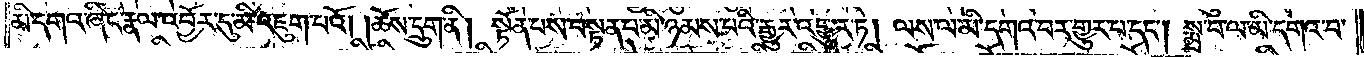མི་དགའ་ཞིང་རྣལ་འབྱོར་དུ་མི་འཇུག་པའོ། །ཆོས་དྲུག་ནི། སྟོན་པས་བསྟན་པ་མི་ཉམས་པའི་རྒྱུར་འགྱུར་ཏེ། ལས་ལ་མི་དགའ་བར་གྱུར་པ་དང༌། སྨྲ་བ་ལ་མི་དགའ་བ་
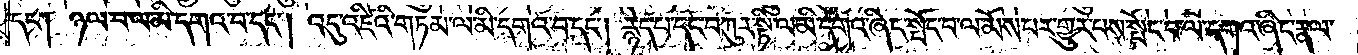དང༌། ཉལ་བ་ལ་མི་དགའ་བ་དང༌། འདུ་འཛིའི་གཏམ་ལ་མི་དགའ་བ་དང༌། རྙེད་པ་དང་བཀུར་སྟི་ལ་མི་དགའ་ཞིང་སྤོང་བ་ལ་མོས་པར་གྱུར་པས་སྤོང་བ་ལ་དགའ་ཞིང་རྣལ་
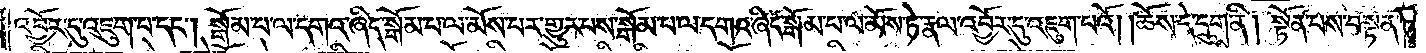འབྱོར་དུ་འཇུག་པ་དང༌། སྒོམ་པ་ལ་དགའ་ཞིང་སྒོམ་པ་ལ་མོས་པར་གྱུར་པས་སྒོམ་པ་ལ་དགའ་ཞིང་སྒོམ་པ་ལ་མོས་ཏེ་རྣལ་འབྱོར་དུ་འཇུག་པའོ། །ཆོས་དེ་དྲུག་ནི། སྟོན་པས་བསྟན་
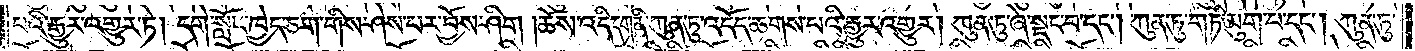པའི་རྒྱུར་འགྱུར་ཏེ། དགེ་སློང་ཁྱེད་ཅག་གིས་ཤེས་པར་བྱོས་ཤིག། ཆོས་འདི་དག་ནི་ཀུན་ཏུ་འདོད་ཆགས་པའི་རྒྱུར་འགྱུར། ཀུན་ཏུ་ཞེ་སྡང་བ་དང༌། ཀུན་ཏུ་གཏི་མུག་པ་དང༌། ཀུན་ཏུ་
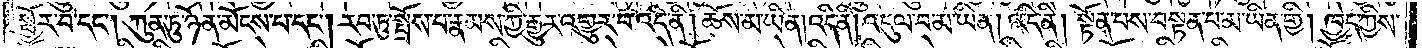སྦྱོར་བ་དང༌། ཀུན་ཏུ་ཉོན་མོངས་པ་དང༌། རབ་ཏུ་སྤྲོས་པ་རྣམས་ཀྱི་རྒྱུར་འགྱུར་བ་འདི་ནི། ཆོས་མ་ཡིན། འདི་ནི། འདུལ་བ་མ་ཡིན། འདི་ནི། སྟོན་པས་བསྟན་པ་མ་ཡིན་གྱི། ཁྱེད་ཀྱིས་
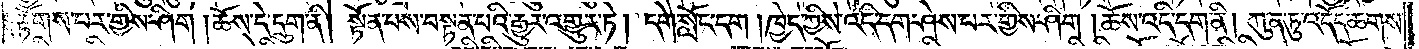རྟོགས་པར་གྱིས་ཤིག །ཆོས་དེ་དྲུག་ནི། སྟོན་པས་བསྟན་པའི་རྒྱུར་འགྱུར་ཏེ། དགེ་སློང་དག །ཁྱེད་ཀྱིས་འདི་དག་ཤེས་པར་གྱིས་ཤིག །ཆོས་འདི་དག་ནི། ཀུན་ཏུ་འདོད་ཆགས་
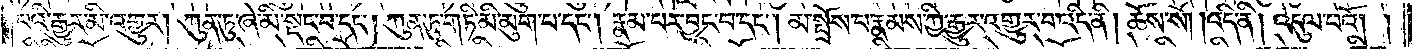པའི་རྒྱུར་མི་འགྱུར། ཀུན་ཏུ་ཞེ་མི་སྡང་བ་དང༌། ཀུན་ཏུ་གཏི་མི་མུག་པ་དང༌། རྣམ་པར་བྱང་བ་དང༌། མ་སྤྲོས་པ་རྣམས་ཀྱི་རྒྱུར་འགྱུར་བ་འདི་ནི། ཆོས་སོ། །འདི་ནི། འདུལ་བའོ། །
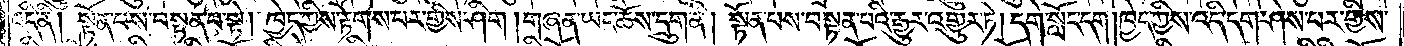འདི་ནི། སྟོན་པས་བསྟན་པ་སྟེ། ཁྱེད་ཀྱིས་རྟོགས་པར་གྱིས་ཤིག །གཞན་ཡང་ཆོས་དྲུག་ནི། སྟོན་པས་བསྟན་པའི་རྒྱུར་འགྱུར་ཏེ། དགེ་སློང་དག །ཁྱེད་ཀྱིས་འདི་དག་ཤེས་པར་གྱིས་
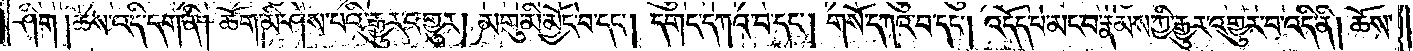ཤིག །ཆོས་འདི་དག་ནི། ཆོག་མི་ཤེས་པའི་རྒྱུར་འགྱུར། མགུ་མི་མྱོང་བ་དང༌། དགང་དཀའ་བ་དང༌། གསོ་དཀའ་བ་དང༌། འདོད་པ་མང་བ་རྣམས་ཀྱི་རྒྱུར་འགྱུར་བ་འདི་ནི། ཆོས་
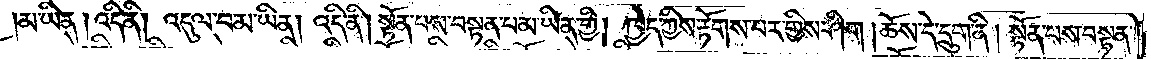མ་ཡིན་།འདི་ནི། འདུལ་བ་མ་ཡིན། འདི་ནི། སྟོན་པས་བསྟན་པ་མ་ཡིན་གྱི། ཁྱེད་ཀྱིས་རྟོགས་པར་གྱིས་ཤིག །ཆོས་དེ་དྲུག་ནི། སྟོན་པས་བསྟན་
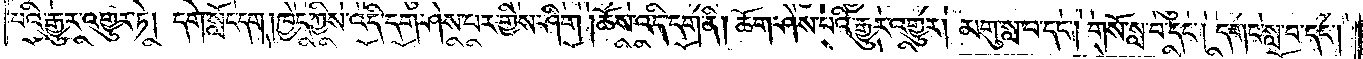པའི་རྒྱུར་འགྱུར་ཏེ། དགེ་སློང་དག །ཁྱེད་ཀྱིས་འདི་དག་ཤེས་པར་གྱིས་ཤིག །ཆོས་འདི་དག་ནི། ཆོག་ཤེས་པའི་རྒྱུར་འགྱུར། མགུ་སླ་བ་དང༌། གསོ་སླ་བ་དང༌། དགང་སླ་བ་དང༌།
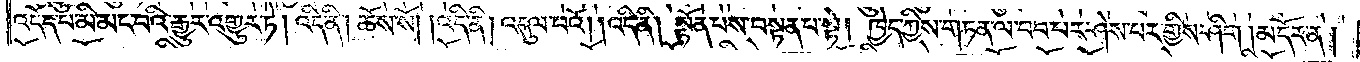འདོད་པ་མི་མང་བའི་རྒྱུར་འགྱུར་ཏེ། འདི་ནི། ཆོས་སོ། །འདི་ནི། འདུལ་བའོ། །འདི་ནི། སྟོན་པས་བསྟན་པ་སྟེ། ཁྱེད་ཀྱིས་གཏན་ལ་བབ་པར་ཤེས་པར་གྱིས་ཤིག །མདོར་ན་།
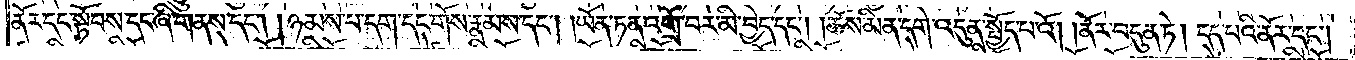ནོར་དང་སྟོབས་དང་ཞི་གནས་དང༌། །ཉམས་པ་དག་དང་གོས་རྣམས་དང༌། །ཡོན་ཏན་འགྲོ་བར་མི་བྱེད་དང༌། །ཆོས་མིན་དགེ་འདུན་སྤྱོད་པའོ། །ནོར་བདུན་ཏེ། དད་པའི་ནོར་དང༌།
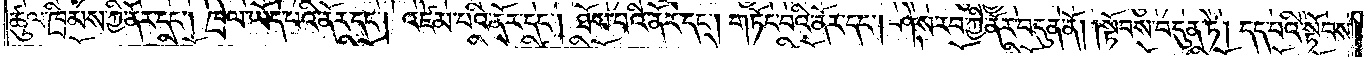ཚུལ་ཁྲིམས་ཀྱི་ནོར་དང༌། ཁྲེལ་ཡོད་པའི་ནོར་དང༌། འཛེམ་པའི་ནོར་དང༌། ཐོས་པའི་ནོར་དང༌། གཏོང་བའི་ནོར་དང༌། ཤེས་རབ་ཀྱི་ནོར་བདུན་ནོ། །སྟོབས་བདུན་ཏེ། དད་པའི་སྟོབས་
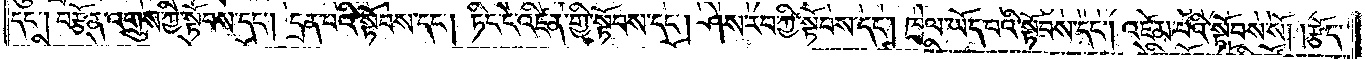དང༌། བརྩོན་འགྲུས་ཀྱི་སྟོབས་དང༌། དྲན་པའི་སྟོབས་དང༌། ཏིང་ངེ་འཛིན་གྱི་སྟོབས་དང༌། ཤེས་རབ་ཀྱི་སྟོབས་དང༌། ཁྲེལ་ཡོད་པའི་སྟོབས་དང༌། འཛེམ་པའི་སྟོབས་སོ། །རྩོད་
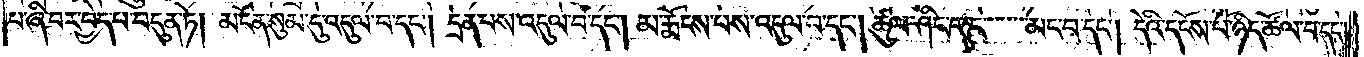པ་ཞི་བར་བྱེད་པ་བདུན་ཏེ། མངོན་སུམ་དུ་འདུལ་བ་དང༌། དྲན་པས་འདུལ་བ་དང༌། མ་རྨོངས་པས་འདུལ་བ་དང༌། ཚུལ་ཤིང་གང་མང་བ་དང༌། དེའི་དངོས་པོ་ཉིད་ཚོལ་བ་དང༌།
